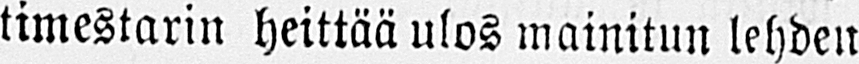timestarin heittää ulos mainitun lehden
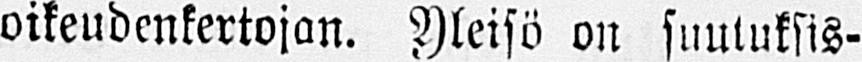oikeudenkertojan. Yleisö on suutuksis-
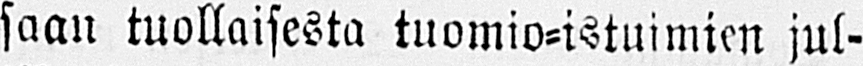saan tuollaisesta tuomio-istuimien jul-
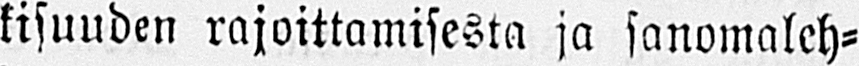kisuuden rajoittamisesta ja sanomaleh-
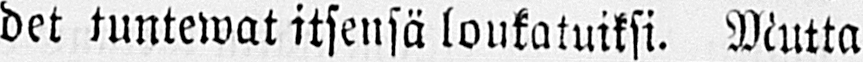det tuntewat itsensä loukatuiksi. Mutta
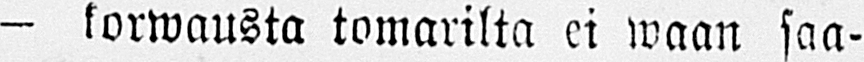- korwausta tomarilta ei waan saa-
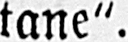tane".
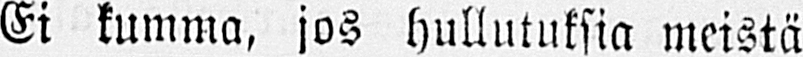Ei kumma, jos hullutuksia meistä
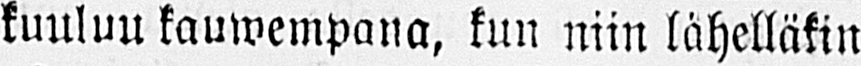kuuluu kauwempana, kun niin lähelläkin
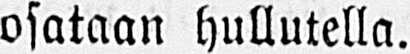osataan hullutella.
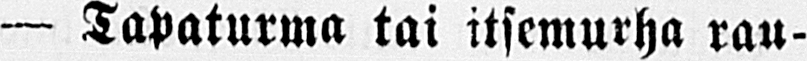— Tapaturma tai itsemurha rau-
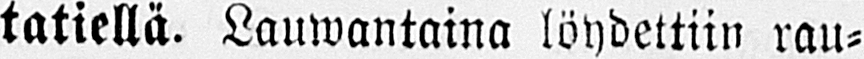tatiellä. Lauwantaina löydettiin rau-
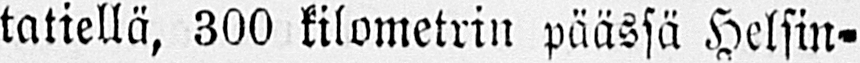tatiellä, 300 kilometrin päässä Helsin-
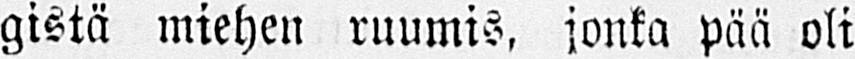gistä miehen ruumis, jonka pää oli
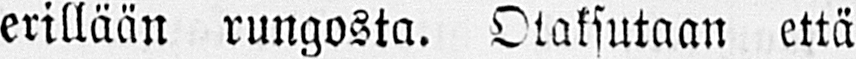erillään rungosta. Otaksutaan että
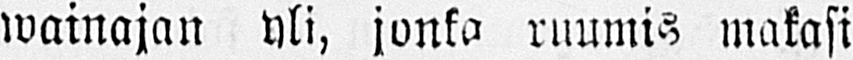wainajan yli, jonka ruumis makasi
